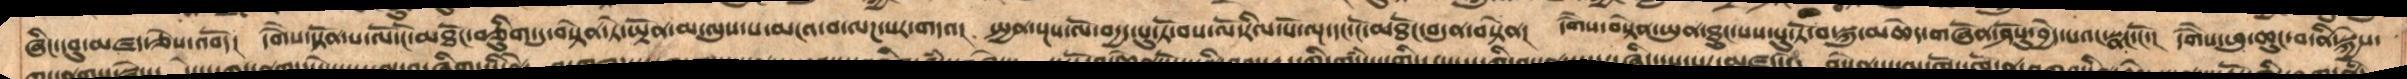ཞིང་དབུ་མཛད་ཅེས་འབོད།  དགཻས་སྟོན་པ་ལོ་ངོ་མཐོང་བཅིུག་དུ་བསྟེན་ཏེ་ཡྟོན་མ་ལུས་པ་མངའ་བ་ལཌ་པར་གདའ།  སྤྱན་སྔས་ལོ་བདྱད་པུ་ཏོ་བས་ལོ་རིལ་པོ་ལྔ་དང་ངོ་མཐོང་བདུན་བསྟེན།  དགཻས་བསྟེན་ཡུན་ཐུང་པས་པུ་ཏོ་བ་སྐུ་མཆེད་གཞོན་ཤོསུ་བྱེད་པའང་སྣང་ངོ་།  དགཻས་ཕུ་ཆུང་བ་ནི་སྐྱེས་
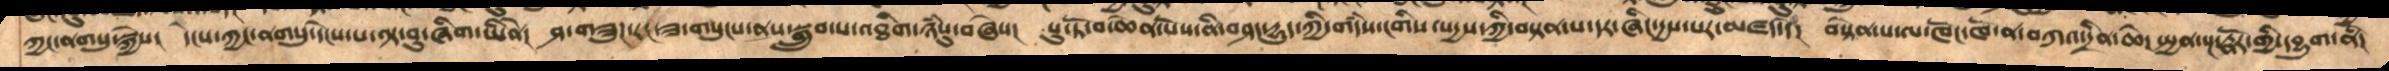ཀྱང་ནགསུ་སྐྱེས།  དེངས་ཀྱང་ནགསུ་དེངས་པ་ལྟ་བུ་ཞིག་ཡིནེ།  ཤ་གཟུཌ་རང་ཟ་གསུངས་ནས་སྒྲུབ་པ་འཐིག་ཉཾསུ་བཞེས།  པུ་ཏོ་བ་ཆེན་པོས་ནི་བཤད་དྱུད་ཀྱི་གདཾས་ངགིས་སདྱས་ཀྱི་བསྟན་པ་དར་ཞིང་དྱས་པར་མཛད་དེ།  བསྟེན་པ་ལ་ཁོང་ཁོ་ན་བཀའ་དྲིན་ཆེ་སྤྱན་སྔ་རྣོར་གྱི་དབྱུག་ནི།
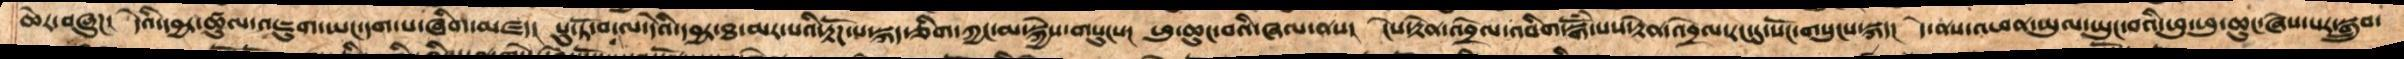ཆེར་བཞུཌ།  དེའི་དབྱར་ཚུལ་འཇུག་ཡང་དག་པ་ཞིག་མཛད།  པུ་ཏོ་བ་ལ་དེའི་དབྱར་ཐ་མར་པའི་རྟོཌ་པ་སྐད་ཅིག་ཀྱང་མ་སྐྱེས་གསུངས།  ཕུ་ཆུང་བའི་ཞལ་ནས།  ངེས་རྟེན་འབྲེལ་འབིག་སྒོཾ་པས་རྟེན་འབྲེལ་རང་དུ་སོང་གསུངས་སྐད།  དེ་ནས་འཕན་ཡུལ་ཡུང་བའི་ཕུ་ཕུ་ཆུང་ཞེས་པར་སྒྲུབ་
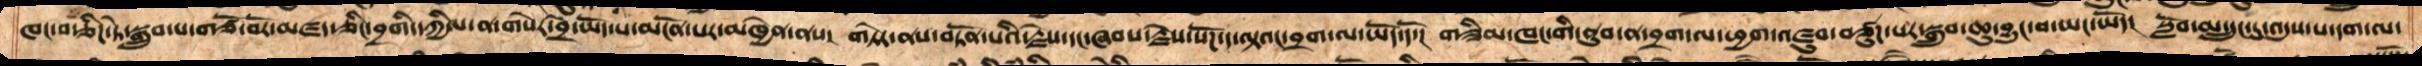ཁང་བརྩིཌ་ཏེ་སྒྲུབ་པ་གཙོ་བོར་མཛད་ཅིང་བྲགི་དཀྱིལ་ན་གསེར་བྲེ་ཡོད་པ་མངོན་པར་མཁྱེན་ནས། གཏེར་ནས་བཏོན་པའི་རྗེས་དང་ཞབས་རྗེས་སོཌ་ད་ལྟའང་བྲག་ལ་ཡོད་དོ་།  གཟིམ་ཁང་གི་ནུབ་ན་བྲག་ལ་ཕྱག་འཛུབ་བཙུཌ་པར་སྒྲུབ་ཆུ་བྱུང་བ་ཡང་ཡོད།  སློབ་མ་དྲུང་དུ་འདུས་པ་དག་ལ་
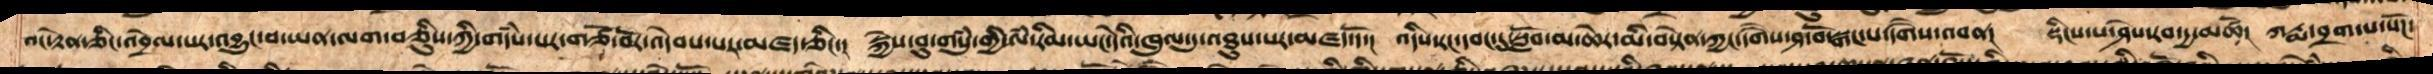འང་རྟེན་ཅིང་འབྲེལ་པར་འབྱུང་བ་ཡན་ལག་བཅིུས་ཀྱི་གདཾས་པར་གཙོ་བོར་འདེབས་པར་མཛད་ཅིང་།  སྐྱེས་བུ་གསུཾ་གྱི་ལཾ་རིམ་ཡང་དེའི་ཁུལ་དུ་འཐུས་པར་མཛད་དོ།  འདིས་རང་དབང་དུ་སློབ་མ་ཆེར་མི་བསྟེན་ཀྱང་དགཻས་ཤ་བོ་སྒང་པ་དགཻས་འབན།  སྡིངས་པ་ཤེས་རབ་དྱ་མཚོ།  ཀརྨ་བྲག་པ་སོཌ་་
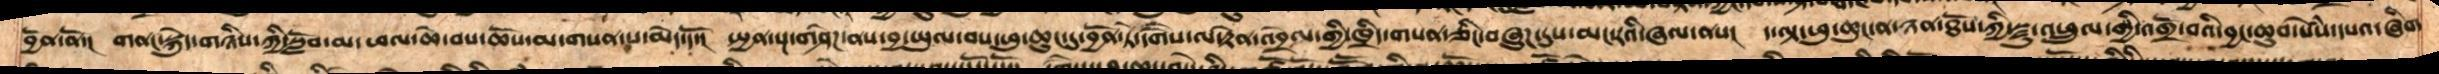བྱོན་ནོ་། གནང་སྐེུད་གཉིས་ཀྱི་སློབ་མ་ཕལ་ཆེ་བས་ཆོས་མ་གསན་པ་མེད་དོ།  སྤྱན་སྔ་གཤེཌ་ནས་བྱ་ཡུལ་བས་ཕུ་ཆུང་དུ་བྱོན་ཏེ་དགཻས་ལ་རྟེན་འབྲེལ་གྱི་ཁྲིད་གསན་ཅིང་བཞུཌ་དུས་མང་རའི་ཞལ་ནས།  ད་ལྟ་ཕུ་ཆུང་ན་ཉན་ཐོས་ཀྱི་སྫུ་འཕྲུལ་གྱི་འགྲོ་བའི་བྱང་ཆུབ་སེསཾ་དཔའ་ཞིག་
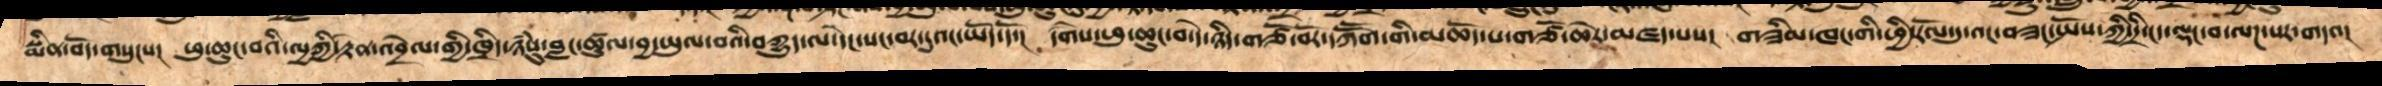སྨིན་བདོ་གསུངས།  ཕུ་ཆུང་བའི་ལྱཀྱི་རྟེན་འབྲེལ་གྱི་ཁྲིད་ཉཾསུ་བླང་ཚུལ་བྱ་ཡུལ་བའི་བཀྱུད་ལ་དེང་སང་བར་དུའང་ཡོད་དོ།  དགཻས་ཕུ་ཆུང་བ་དེ་ཉིད་གཙོ་བོར་དཀཽག་གི་མཆོད་པ་གཙོ་ཆེར་མཛད་པས།  གཟིམ་ཁང་གི་ཕྱི་རོལ་དུ་འང་བཟང་སྤོས་ཀྱི་དྲི་ངད་ལྡང་བ་ལཌ་པར་གདའ།
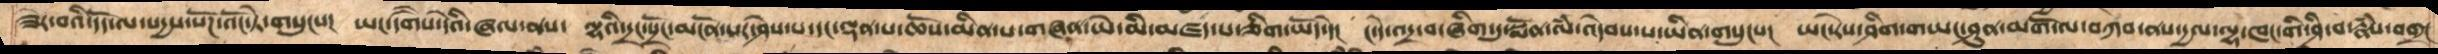ཟེར་བའི་དོད་ལ་སདྱས་སོཌ་འོང་ཏེ་གསུངས།  ཡང་དགཻས་དེའི་ཞལ་ནས།  ལྷའི་དྲང་སྲོང་མངོན་པར་ཤེས་པ་དང་ལྡན་པ་ཆོས་མིན་པ་གཞན་ཡེ་མི་མཛད་པ་ཅིག་ཡོད་དེ།  ང་དེ་འདྲ་བ་ཞིག་དུ་སྨོན་ལཾ་འདེབས་པ་ཡིན་གསུངས།  ཡང་རེས་ཤིག་གཡང་ཤུན་མགོ་ལ་བཀབ་ནས་དྱལ་ལྷ་ཁང་གི་ཤི་བ་རྣཾས་བགྲང
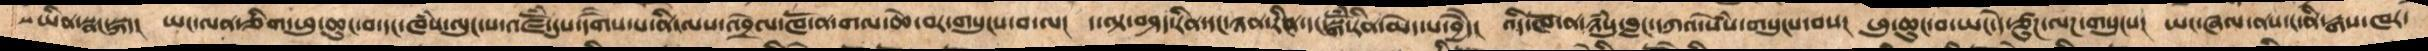ས་ཡིན་སྣང་སྐད། ཡང་ལན་ཅིག་ཕུ་ཆུང་བ་དང་ཁཾས་ལུང་པ་འཛོཾ་དུས་དགཻས་པ་ནི་ལས་འབྲེལ་ཁོ་ན་གལ་ཆེ་བར་གསུངས་བ་ལ།  ད་ལྟ་བཤད་རིན་དང་ཉན་རིན་དང་སྒོཾ་རིན་མེད་པ་བྱེདེ།  འདི་ཁོ་ན་ཉཾསུ་བླང་དཀའ་སེསཾ་གསུང་བས།  ཕུ་ཆུང་བ་ཡང་དེ་ཙུཌ་ལཌ་གསུངས་།  ཡང་ཞལ་ནས་ང་ནི་རྒས་ཁར་
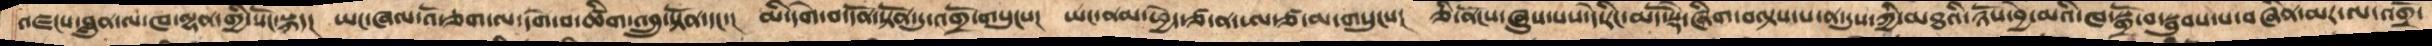འཛངས་བླུན་ལ་ཁ་ལྷན་གྱི་སོང་སྐད།  ཡང་ཞལ་འོ་ཅག་དགེ་བའི་ཚིག་འབྲུ་སྟོན་དང་།  མི་དགེ་བ་དོན་སྟོན་དུ་འགྲོ་གསུངས།  ཡང་ནམ་ཕྱེད་ཙ་ན་ཨ་ཙ་མ་གསུངས།  ཅི་ནོངས་ཞུས་པས་དེ་རིང་མདོ་སྡེ་ཞིག་བལྟས་པ་ན་དུས་ཀྱི་མཐའི་ཉོས་བྱེ་མའི་སྒྲོ་བ་སྦུབས་པ་བཞིན་མར་ལ་འགྲོ་
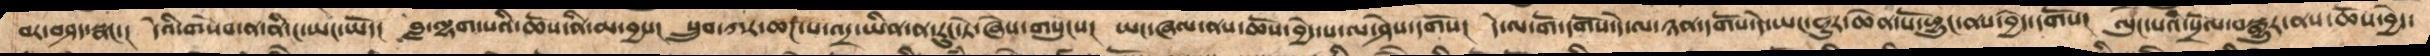བར་བཤད་སྣང་།  དེའི་གསེབ་ན་ནི་ང་ཡང་ཡོད།  བླ་ལྷག་པའི་ཆོས་ནི་མ་བྱས།  སྲུབ་ཀར་ཆཌ་པ་འདྲ་ཡིན་ན་རུང་ཏེ་ཞེས་གསུངས།  ཡང་ཞལ་ནས་ཆོས་བྱེད་པ་ལ་ཤེས་དགོས།  དེ་ལ་གོ་དགོས་དེ་ལ་ཉན་དགོས་དེ་ཡང་ཧུར་ཆེན་་པོ་ཕྱུང་ནས་བྱེད་དགོས།  ལུང་པའི་སྲོལ་བསྒྱུར་ནས་ཆོས་བྱེད་
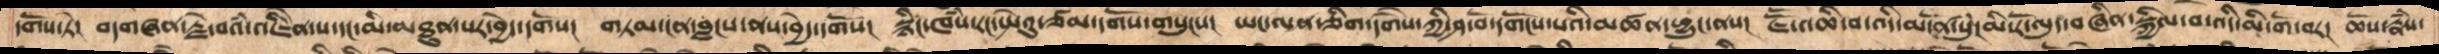དགོས་ཏེ། བདགཞན་རྗེ་བའི་འཇིེན་པ་དང་་མི་མཐུན་པར་བྱེད་དགོས།  གཏམ་ངན་བླངས་ནས་བྱེད་དགོས།  སྙིང་ཁཾས་རང་སྤེའུ་ཙམ་དགོས་གསུངས།  ཡང་ལན་ཅིག་དགཻས་ཀྱི་ཤ་བོ་དགོངས་པའི་མཚན་ཕྱུང་ནས།  ཇཽ་འཆི་བ་འདི་མངོན་སུཾ་མི་རོ་ལུད་བཞིན་སྐྱིལ་བ་འདི་མི་གོ་བར།  ཆོས་རྣཾས་
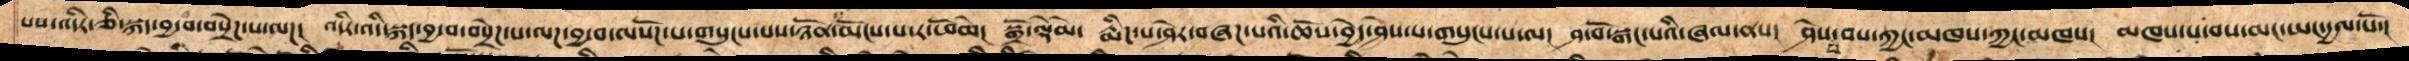པས་འདིར་ཅི་སྐད་བྱ་བ་བསྲེཌ་པ་ལཌ།  འདིར་འདི་སྐད་བྱ་བ་བསྲེཌ་པ་ལཌ་བྱ་བ་ལསོཌ་པ་གསུངས་པས་ཉོན་མོངས་པ་ར་ཕོམེ།  སྒྲོ་ལྡེམེ་  རྨིཌ་པ་ཤེར་བཞཌ་པའི་ཆོས་བྱེད་པ་གསུངས་པ་ལ།  ཤ་བོ་སྒང་པའི་ཞལ་ནས།  ཤེས་པ་བས་ཀྱང་མཁས་ཀྱང་མཁས།  མཁས་པ་བས་མང་ཡང་དྱལ་པོ་།
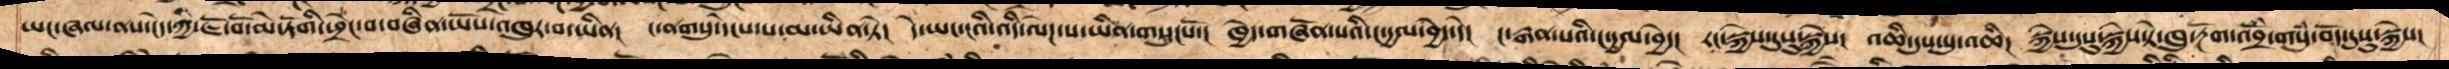ཡང་ཞལ་ནས་ངེད་ཀྱི་ཇོ་བོ་མེ་ཏོགི་འཕྲེང་བ་བཞིན་ཡོས་འཁུར་བ་ཡིན།  ང་ནགསུ་དེངས་པ་མ་ཡིན་ཏེ།  དེ་ཡང་ངའི་འདི་ལེཌ་པ་ཡིན་གསུངསོ་།  ཁྱེད་གཞོན་པའི་ང་དྱལ་བྱེད་དེ།  ང་རྒན་པའི་ང་དྱལ་བྱེད།  རང་སྐྱེས་དུསུ་སྐྱེས།  འཆི་དུས་སུ་འཆི། སྐྱེས་དུསུ་སྐྱེས་ཏེ་ཁུ་རྔོག་འབྲོཾ་གསུཾ་བོད་དུསུ་སྐྱེས།
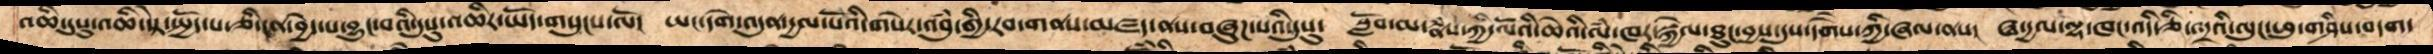འཆི་དུས་སུ་འཆི་སྟེ་སྤྱོད་པ་ཅི་ངན་བྱེད་པ་བྱུང་བའི་དུསུ་འཆིར་ཡོད་གསུངས་ལོ།  ཡང་དགེ་འདུན་དྱལ་པོའི་གསེར་འབུཾ་གྱི་རབ་གནས་མཛད་ནས་བཞུཌ་པའི་དུསུ་  སློབ་མ་རྣཾས་ཀྱི་ལོའི་ཆེའི་ལཾ་་ཁར་སྐྱེལ་ཐུང་བྱས་དུས་དགཻས་ཀྱི་ཞལ་ནས།  ཝ་དྱལ་ལྷ་ཁང་འདི་ཅི་འདྲའི་ལུང་ཕུ་གཤིས་བདག་
